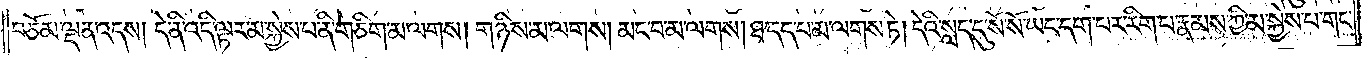བཅོམ་ལྡན་འདས། དེ་ནི་འདི་ལྟར་མ་སྐྱེས་པ་ནི་གཅིག་མ་ལགས། གཉིས་མ་ལགས། མང་བ་མ་ལགས། ཐ་དད་པ་མ་ལགས་ཏེ། དེའི་སླད་དུ་སོ་སོ་ཡང་དག་པར་རིག་པ་རྣམས་ཀྱི་མ་སྐྱེས་པ་གང་
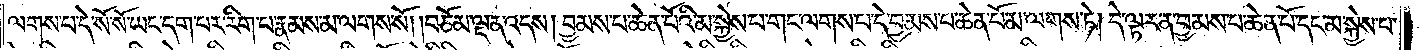ལགས་པ་དེ་སོ་སོ་ཡང་དག་པར་རིག་པ་རྣམས་མ་ལགས་སོ། །བཅོམ་ལྡན་འདས། བྱམས་པ་ཆེན་པོའི་མ་སྐྱེས་པ་གང་ལགས་པ་དེ་བྱམས་པ་ཆེན་པོ་མ་ལགས་ཏེ། དེ་ལྟར་ན་བྱམས་པ་ཆེན་པོ་དང་མ་སྐྱེས་པ་
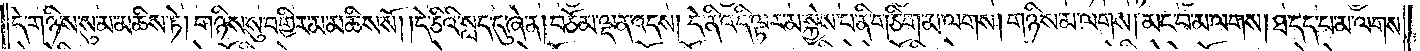དེ་གཉིས་སུ་མ་མཆིས་ཏེ། གཉིས་སུ་བགྱིར་མ་མཆིས་སོ། །དེ་ཅིའི་སླད་དུ་ཞེ་ན། བཅོམ་ལྡན་འདས། དེ་ནི་འདི་ལྟར་མ་སྐྱེས་པ་ནི་གཅིག་མ་ལགས། གཉིས་མ་ལགས། མང་བ་མ་ལགས། ཐ་དད་པ་མ་ལགས་
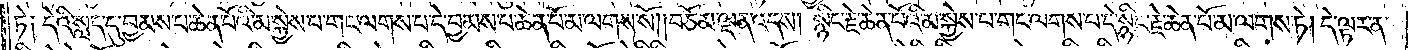ཏེ༑ དེའི་སླད་དུ་བྱམས་པ་ཆེན་པོའི་མ་སྐྱེས་པ་གང་ལགས་པ་དེ་བྱམས་པ་ཆེན་པོ་མ་ལགས་སོ། །བཅོམ་ལྡན་འདས། སྙིང་རྗེ་ཆེན་པོའི་མ་སྐྱེས་པ་གང་ལགས་པ་དེ་སྙིང་རྗེ་ཆེན་པོ་མ་ལགས་ཏེ། དེ་ལྟར་ན་
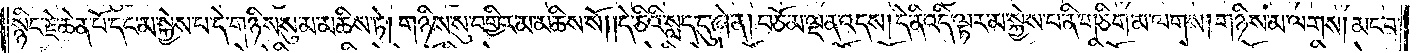སྙིང་རྗེ་ཆེན་པོ་དང་མ་སྐྱེས་པ་དེ་གཉིས་སུ་མ་མཆིས་ཏེ། གཉིས་སུ་བགྱིར་མ་མཆིས་སོ། །དེ་ཅིའི་སླད་དུ་ཞེ་ན། བཅོམ་ལྡན་འདས། དེ་ནི་འདི་ལྟར་མ་སྐྱེས་པ་ནི་གཅིག་མ་ལགས། གཉིས་མ་ལགས། མང་བ་
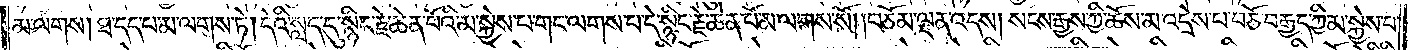མ་ལགས། ཐ་དད་པ་མ་ལགས་ཏེ། དེའི་སླད་དུ་སྙིང་རྗེ་ཆེན་པོའི་མ་སྐྱེས་པ་གང་ལགས་པ་དེ་སྙིང་རྗེ་ཆེན་པོ་མ་ལགས་སོ། །བཅོམ་ལྡན་འདས། སངས་རྒྱས་ཀྱི་ཆོས་མ་འདྲེས་པ་བཅོ་བརྒྱད་ཀྱི་མ་སྐྱེས་པ་
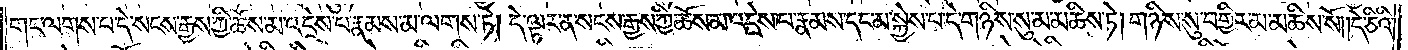གང་ལགས་པ་དེ་སངས་རྒྱས་ཀྱི་ཆོས་མ་འདྲེས་པ་རྣམས་མ་ལགས་ཏེ། དེ་ལྟར་ན་སངས་རྒྱས་ཀྱི་ཆོས་མ་འདྲེས་པ་རྣམས་དང་མ་སྐྱེས་པ་དེ་གཉིས་སུ་མ་མཆིས་ཏེ། གཉིས་སུ་བགྱིར་མ་མཆིས་སོ། །དེ་ཅིའི་
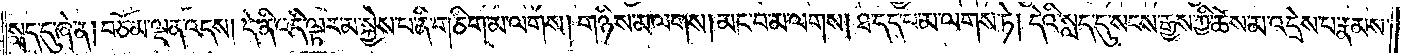སླད་དུ་ཞེ་ན། བཅོམ་ལྡན་འདས། དེ་ནི་འདི་ལྟར་མ་སྐྱེས་པ་ནི་གཅིག་མ་ལགས། གཉིས་མ་ལགས། མང་བ་མ་ལགས། ཐ་དད་པ་མ་ལགས་ཏེ། དེའི་སླད་དུ་སངས་རྒྱས་ཀྱི་ཆོས་མ་འདྲེས་པ་རྣམས་
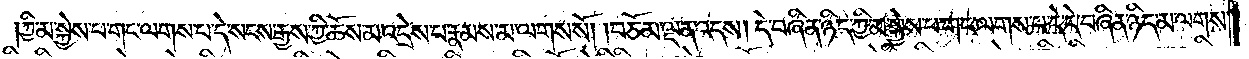ཀྱི་མ་སྐྱེས་པ་གང་ལགས་པ་དེ་སངས་རྒྱས་ཀྱི་ཆོས་མ་འདྲེས་པ་རྣམས་མ་ལགས་སོ། །བཅོམ་ལྡན་འདས། དེ་བཞིན་ཉིད་ཀྱི་མ་སྐྱེས་པ་གང་ལགས་པ་དེ་དེ་བཞིན་ཉིད་མ་ལགས་
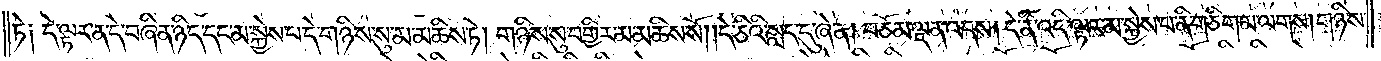ཏེ༑ དེ་ལྟར་ན་དེ་བཞིན་ཉིད་དང་མ་སྐྱེས་པ་དེ་གཉིས་སུ་མ་མཆིས་ཏེ། གཉིས་སུ་བགྱིར་མ་མཆིས་སོ། །དེ་ཅིའི་སླད་དུ་ཞེ་ན། བཅོམ་ལྡན་འདས། དེ་ནི་འདི་ལྟར་མ་སྐྱེས་པ་ནི་གཅིག་མ་ལགས། གཉིས་
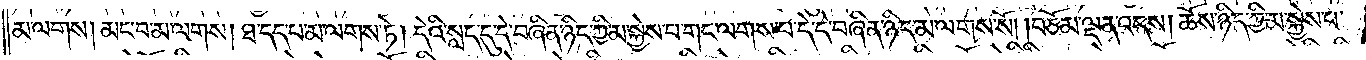མ་ལགས། མང་བ་མ་ལགས། ཐ་དད་པ་མ་ལགས་ཏེ། དེའི་སླད་དུ་དེ་བཞིན་ཉིད་ཀྱི་མ་སྐྱེས་པ་གང་ལགས་པ་དེ་དེ་བཞིན་ཉིད་མ་ལགས་སོ། །བཅོམ་ལྡན་འདས། ཆོས་ཉིད་ཀྱི་མ་སྐྱེས་པ་
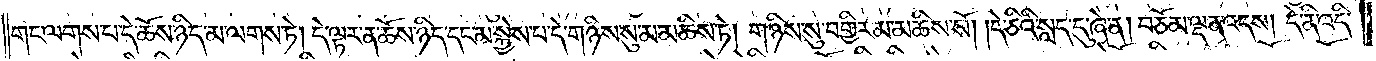གང་ལགས་པ་དེ་ཆོས་ཉིད་མ་ལགས་ཏེ། དེ་ལྟར་ན་ཆོས་ཉིད་དང་མ་སྐྱེས་པ་དེ་གཉིས་སུ་མ་མཆིས་ཏེ། གཉིས་སུ་བགྱིར་མ་མཆིས་སོ། །དེ་ཅིའི་སླད་དུ་ཞེ་ན། བཅོམ་ལྡན་འདས། དེ་ནི་འདི་
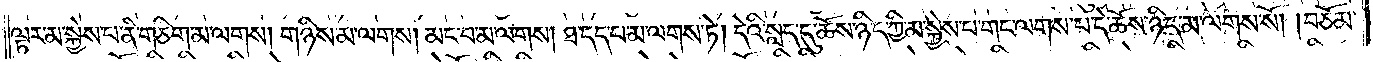ལྟར་མ་སྐྱེས་པ་ནི་གཅིག་མ་ལགས། གཉིས་མ་ལགས། མང་བ་མ་ལགས། ཐ་དད་པ་མ་ལགས་ཏེ། དེའི་སླད་དུ་ཆོས་ཉིད་ཀྱི་མ་སྐྱེས་པ་གང་ལགས་པ་དེ་ཆོས་ཉིད་མ་ལགས་སོ། །བཅོམ་
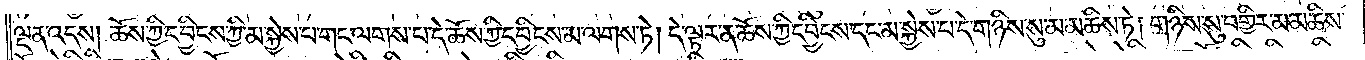ལྡན་འདས། ཆོས་ཀྱི་དབྱིངས་ཀྱི་མ་སྐྱེས་པ་གང་ལགས་པ་དེ་ཆོས་ཀྱི་དབྱིངས་མ་ལགས་ཏེ། དེ་ལྟར་ན་ཆོས་ཀྱི་དབྱིངས་དང་མ་སྐྱེས་པ་དེ་གཉིས་སུ་མ་མཆིས་ཏེ། གཉིས་སུ་བགྱིར་མ་མཆིས་
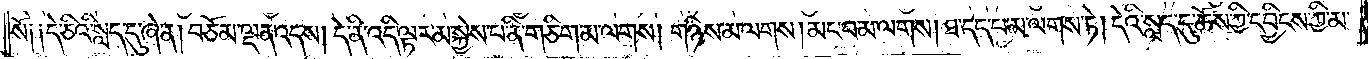སོ༑ ༑དེ་ཅིའི་སླད་དུ་ཞེ་ན། བཅོམ་ལྡན་འདས། དེ་ནི་འདི་ལྟར་མ་སྐྱེས་པ་ནི་གཅིག་མ་ལགས། གཉིས་མ་ལགས། མང་བ་མ་ལགས། ཐ་དད་པ་མ་ལགས་ཏེ། དེའི་སླད་དུ་ཆོས་ཀྱི་དབྱིངས་ཀྱི་མ་
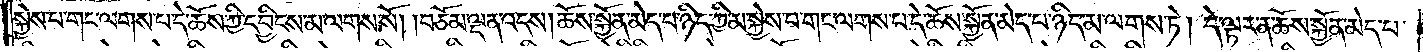སྐྱེས་པ་གང་ལགས་པ་དེ་ཆོས་ཀྱི་དབྱིངས་མ་ལགས་སོ། །བཅོམ་ལྡན་འདས། ཆོས་སྐྱོན་མེད་པ་ཉིད་ཀྱི་མ་སྐྱེས་པ་གང་ལགས་པ་དེ་ཆོས་སྐྱོན་མེད་པ་ཉིད་མ་ལགས་ཏེ། དེ་ལྟར་ན་ཆོས་སྐྱོན་མེད་པ་
